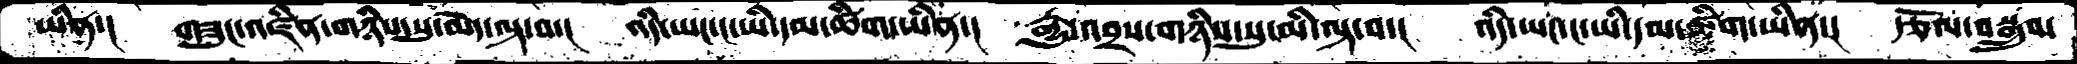ཡིན་།  གཟུང་འཛིན་གཉིས་སུ་མེད་ལྟ་བ་།  འདི་ཡང་ང་ཡི་དམ་ཚིག་ཡིན་།  རྒྱུ་འབྲས་གཉིས་སུ་མི་ལྟ་བ་།  འདི་ཡང་ང་ཡི་དམ་ཚིག་ཡིན་།  རྩོལ་བསྒྲུབ་
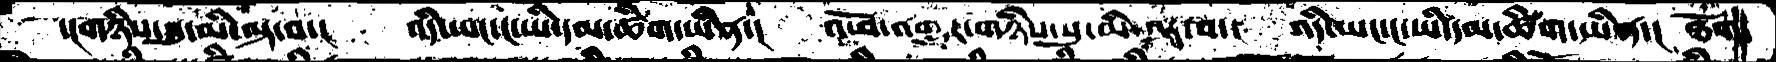་།གཉིས་སུ་མི་ལྟ་བ་།  འདི་ཡང་ང་ཡི་དམ་ཚིག་ཡིན་།  འཕོ་འགྱུར་གཉིས་སུ་མི་ལྟ་བ་།  འདི་ཡང་ང་ཡི་དམ་ཚིག་ཡིན་།  ཐོག་
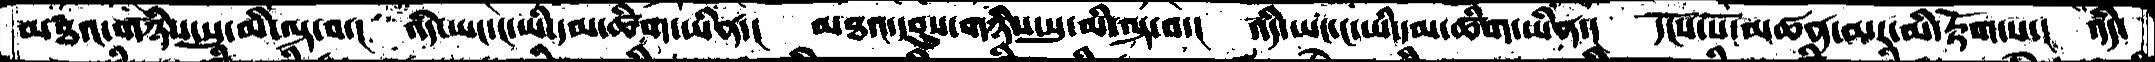མཐའ་གཉིས་སུ་མི་ལྟ་བ་།  འདི་ཡང་ང་ཡི་དམ་ཚིག་ཡིན་།  མཐའ་དབུས་གཉིས་སུ་མི་ལྟ་བ་།  འདི་ཡང་ང་ཡི་དམ་ཚིག་ཡིན་།  དངོས་པོ་མཚན་མར་མི་རྟོག་པ་།  འདི་
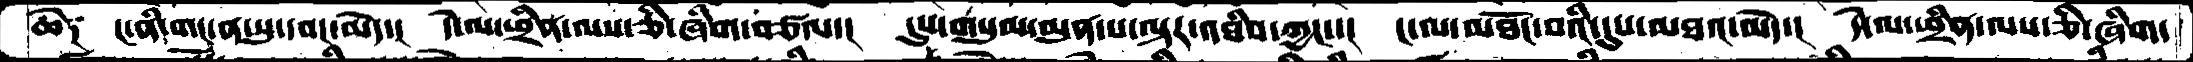ཆེ༑  ང་ནི་གང་ན་སུ་དབང་མེད་།  དེ་ལ་ཕྲིན་ལས་ཅི་ཞིག་བཙལ་།  དུས་གསུམ་མུན་པ་ལྟར་འཐིབ་ཀྱང་་།  ང་ལ་མཐོང་བའི་དུས་མཐའ་མེད་།  དེ་ལ་ཕྲིན་ལས་ཅི་ཞིག་
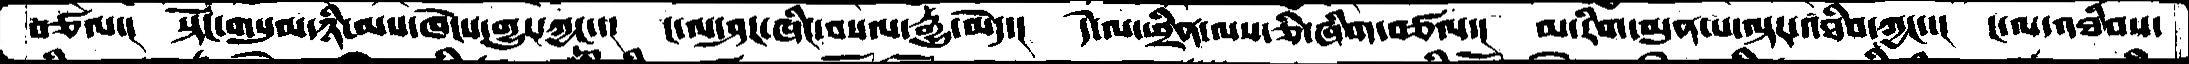བཙལ་།  སྟོང་གསུམ་ཉི་མས་ཁེངས་གྱུར་ཀྱང་་།  ང་ལ་ཤར་ཞིང་བསལ་རྒྱུ་མེད་།  དེ་ལ་ཕྲིན་ལས་ཅི་ཞིག་བཙལ་།  མ་རིག་མུན་པ་ལྟར་འཐིབ་ཀྱང་་། ང་ལ་འཐིབས་
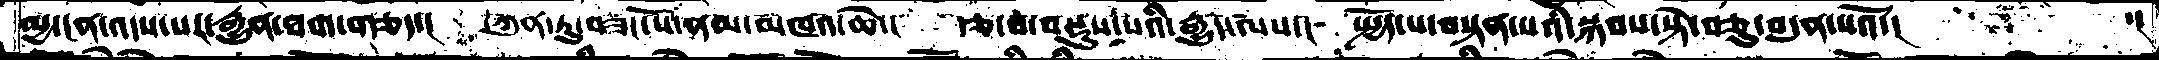མྱ་ངན་འདས་པར་རྒྱུན་ཐག་གཅད་།  ཀུན་ཏུ་བཟང་པོ་ནམ་མཁའ་ཆེ་།  རྩ་བ་བསྡུས་པའི་རྒྱུད་ལས་།  སྤྱོད་པ་བསྟན་པའི་སྐབས་སྟེ་བཅུ་བདུན་པའོ་།         ་།
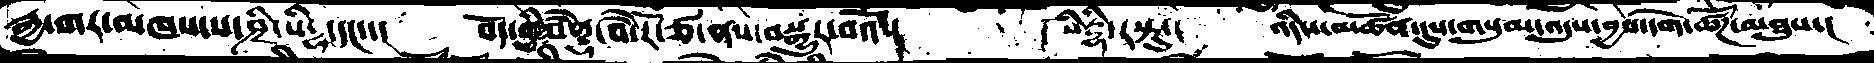རྒྱ་གར་མཁས་པ་ཤྲི་སིངྷ་དང་་།  བོད་གྱི་བཻནྡྷ་བཻ་རོ་ཙ་ནས་བསྒྱུར་བའོ་།    སིརྡྷི་རསྟུ་།   འདིས་མཚོན་དུས་གསུམ་འདུས་བྱས་དགེ་ཚོཌ་མཐུས་།
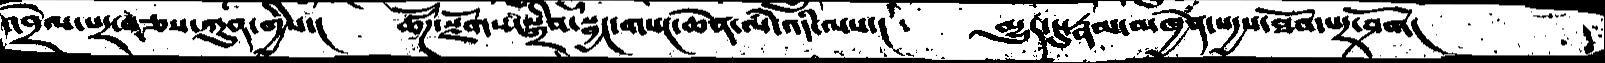འབྲེལ་པར་བཅས་ཀུན་གྱིས་།  ཚོཌ་སྫོགས་སྒྲིབ་སྦྱང་གསང་ཆེན་ལཾ་འདི་ལས་།  མྱུར་དུ་རྣམ་མཁྱེན་སདྱས་ཐོབ་པར་ཤོག།
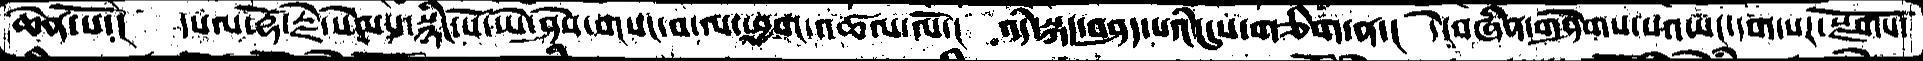ཆེན་པོ་།  དཔལ་རྡོ་རྗེ་སེམས་སྙིང་པོ་ཡེ་ཤེས་གསང་བ་ལ་ཕྱག་འཚལ་ལོ་།  འདི་སྐད་བཤད་པའི་དུས་གཅིག་ན་།  དེ་བཞིན་གཤེགས་པའཡང་དག་པར་སྫོགས་
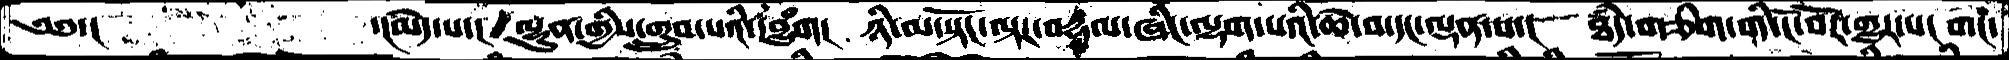༄༅་།         ་།མེད་པ་། ལྷུན་གྱིས་གྲུབ་པའི་དབྱུཾག། ཉི་མ་སྟོང་ལྟར་བརྡལ་ཞིང་ལྷག་པའི་ཆེ་བ་དང་ལྡན་པ་། ཐཾད་གཅིག་གི་ངོ་བོར་གྱུར་པ། གང་
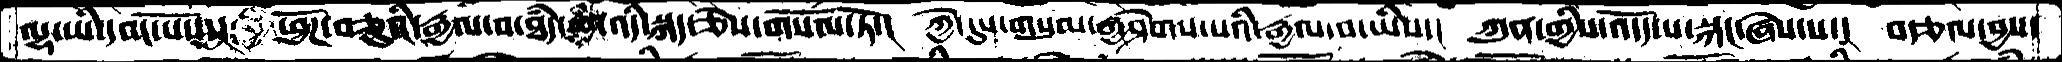ལྷ་ཡི་དབང་པོས་།  ཕྱོགས་བཅུའི་རྒྱལ་བ་ཐཾད་ལ་འདི་སྐད་ཅེས་གསོལ་ཏོ་།  ཀྱེ་དུས་གསུམ་གཤེགས་པའི་རྒྱལ་བ་ཡིས་།  ཀུན་གྱིས་འདོད་པ་སྐང་ཞེས་པ་།  བདཙལ་བྱས་
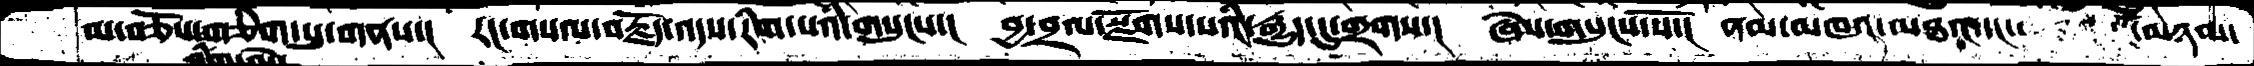མ་བཅོས་གཅིག་པུ་གནས་། རང་གསལ་བརྗོད་འདས་རིག་པའི་གསུངས་། བྱ་བྲལ་སྫོགས་པའི་རྒྱུད་དུ་གྲགས་། ཞེས་གསུངས་སོ་། ནམ་མཁའ་མཐའ་དང་   མཉམ་
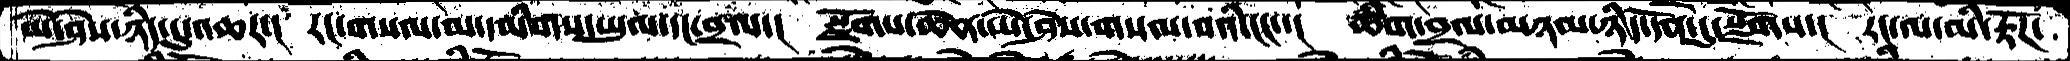ཡེ་ཤེས་ཉིད་དུ་འཆར་།  རང་གསལ་མ་དམིགས་ཡུལ་དང་བྲལ་།  སྫོགས་ཆེན་ཡེ་ཤེས་གསལ་བའི་ངང་་།  ཚིག་བྲལ་མཉམ་ཉིད་དོན་དུ་སྫོགས་།  རང་ལ་མི་རྟོཌ་
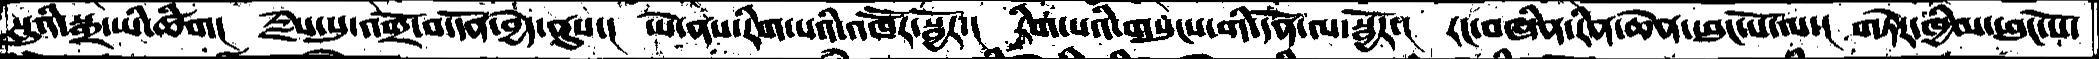སླུའི་སྒྲ་ཡི་ཚིག།  རྗེས་སུ་འགྲོ་བ་དོན་བྱེད་ནུས་།  ཡེ་ནས་རིག་པའི་འཁོོརོ་སྦྱོར་།  རིག་པའི་གསུངས་གི་དོན་ལ་སྦྱོར་།   རང་བཞིན་རིན་ཆེན་ཕུང་པོ་ལ་།  གཏེར་ཁྱིམ་ཕུང་པོ་
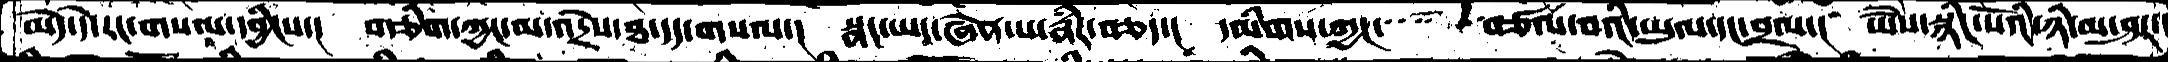མེད་དེ་རང་གསལ་དབྱིངས་། གཅིག་ཀྱང་མ་འདྲེས་ཐ་དད་གསལ་། སྣང་ཡང་ཞེན་པ་རྣཾར་བཅད་། དམིགས་ཀྱང་་་་བཙལ་བའི་ཡུལ་དང་བྲལ་། ཡཻས་སྙིང་པོའི་ཉི་མ་ཤར་།
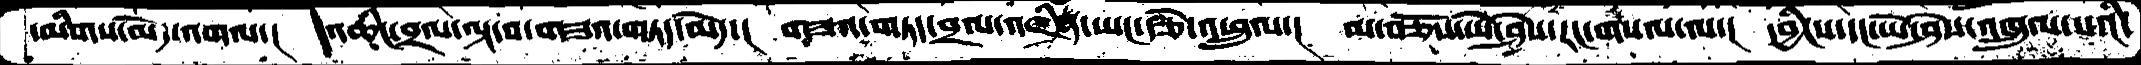དམིགས་མེད་འགལ་།  འཆིང་བྲལ་ལྟ་བ་གཟའ་གཏད་མེད་།  གཟའ་གཏད་བྲལ་འཛིན་ཡང་རྩེ་འཕྲུལ་།  མ་བཅོས་ཡེ་ཤེས་རང་གསལ་ལ་།  དབྱིངས་དང་ཡེ་ཤེས་འཁྲུལ་པའི་
